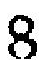8
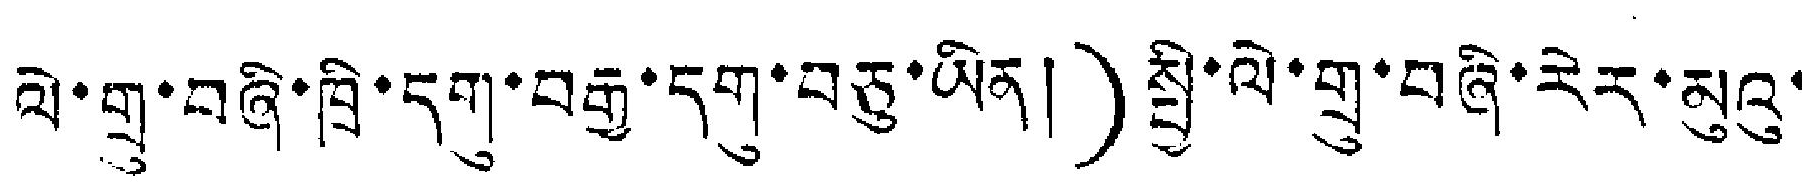ལེ་གྲུ་བཞི་ཁྲི་དགུ་བརྒྱ་དགུ་བཅུ་ཡིན།)སྤྱི་ལེ་གྲུ་བཞི་རེར་མུའུ་
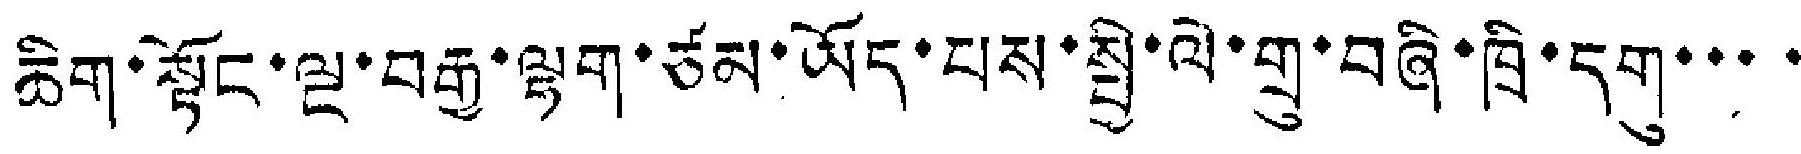ཆིག་སྟོང་ལྔ་བརྒྱ་ལྷག་ཙམ་ཡོད་པས་སྤྱི་ལེ་གྲུ་བཞི་ཁྲི་དགུ་་་་
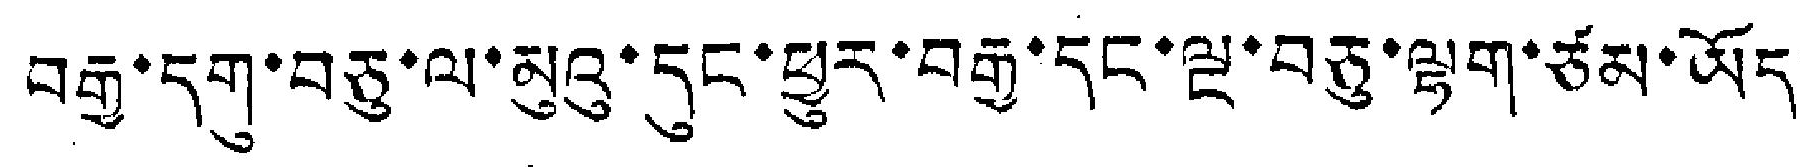བརྒྱ་དགུ་བཅུ་ལ་མུའུ་དུང་ཕྱུར་བརྒྱ་དང་ལྔ་བཅུ་ལྷག་ཙམ་ཡོད་
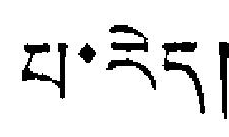པ་རེད།
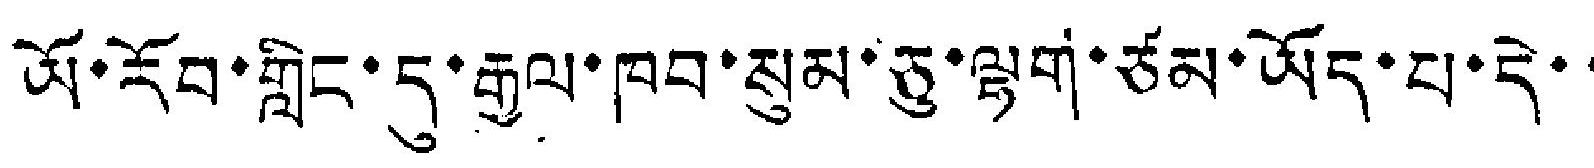ཡོ་རོབ་གླིང་དུ་རྒྱལ་ཁབ་སུམ་ཅུ་ལྷག་ཙམ་ཡོད་པ་དེ་་
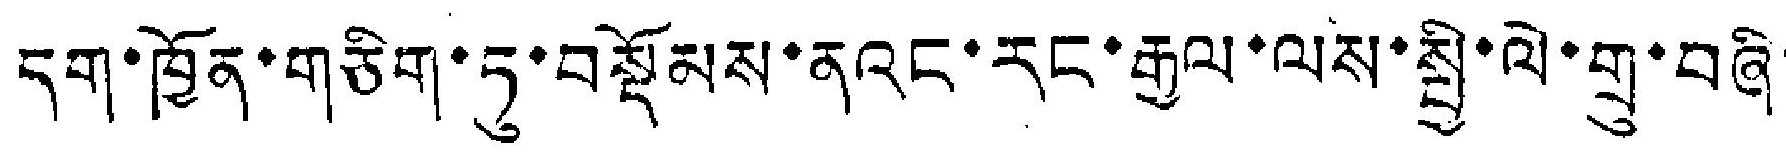དག་ཁྱོན་གཅིག་ཏུ་བསྡོམས་ནའང་རང་རྒྱལ་ལས་སྤྱི་ལེ་གྲུ་བཞི་
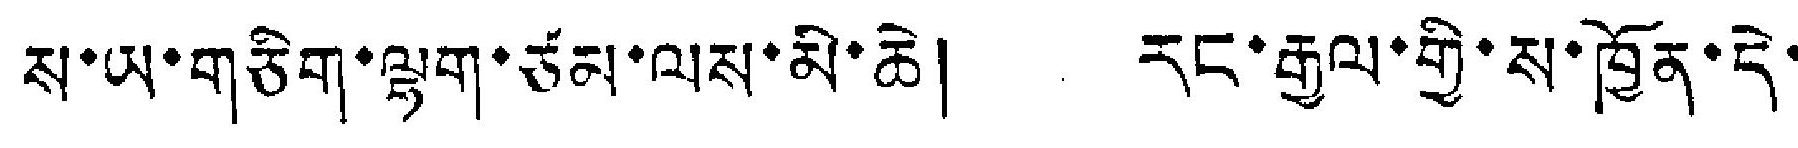ས་ཡ་གཅིག་ལྷག་ཙམ་ལས་མི་ཆེ། རང་རྒྱལ་གྱི་ས་ཁྱོན་དེ་
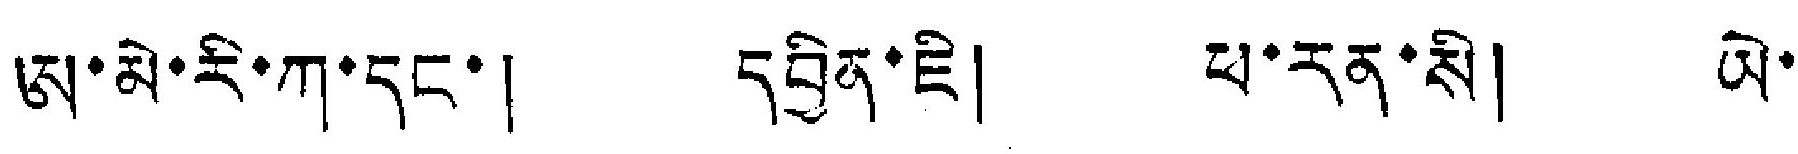ཨ་མེ་རི་ཀ་དང་། དབྱིན་ཇི། ཕ་རན་སི། ཡེ་
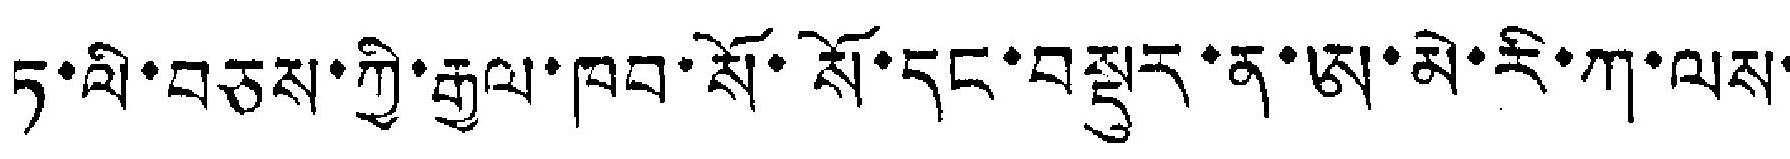ཏ་ལི་བཅས་ཀྱི་རྒྱལ་ཁབ་སོ་སོ་དང་བསྡུར་ན་ཨ་མེ་རི་ཀ་ལས་
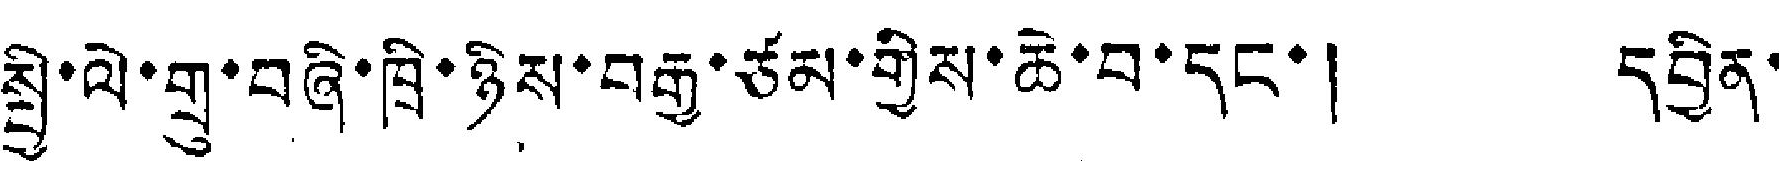སྤྱི་ལེ་གྲུ་བཞི་ཁྲི་ཉིས་བརྒྱ་ཙམ་གྱིས་ཆེ་བ་དང་། དབྱིན་
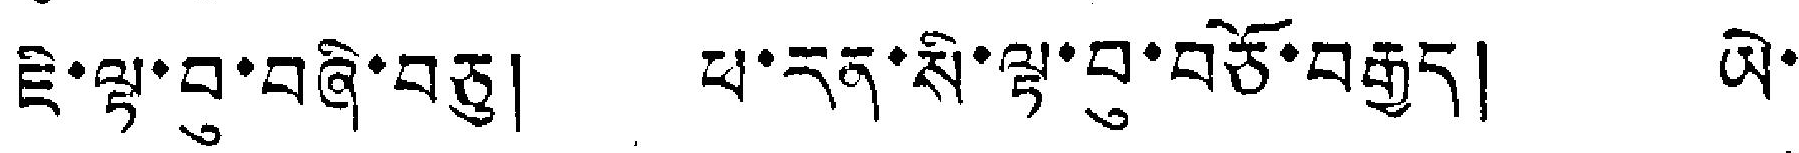ཇི་ལྟ་བུ་བཞི་བཅུ། ཕ་རན་སི་ལྟ་བུ་བཅོ་བརྒྱད། ཡེ་
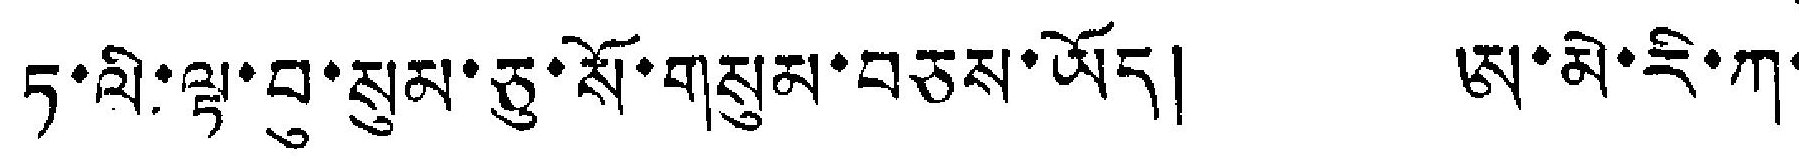ཏ་ལི་ལྟ་བུ་སུམ་ཅུ་སོ་གསུམ་བཅས་ཡོད། ཨ་མེ་རི་ཀ་
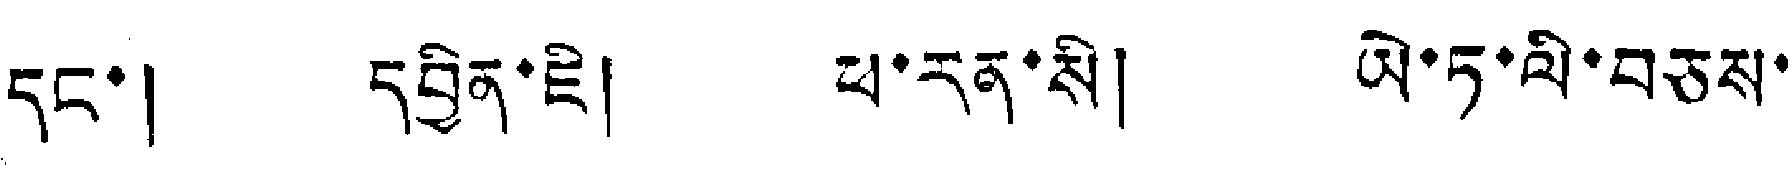དང་། དབྱིན་ཇི། ཕ་རན་སི། ཡེ་ཏ་ལི་བཅས་
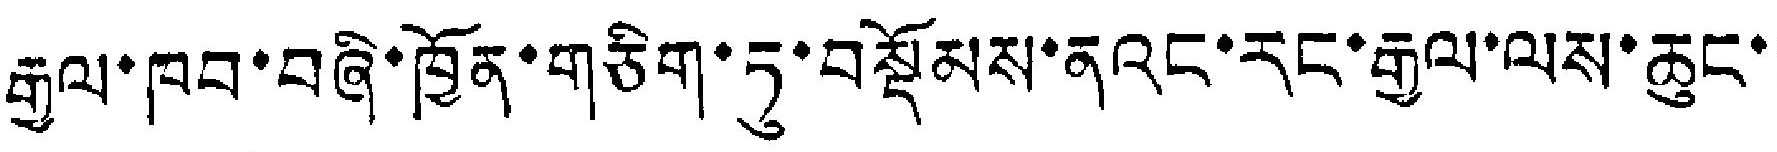རྒྱལ་ཁབ་བཞི་ཁྱོན་གཅིག་ཏུ་བསྡོམས་ནའང་རང་རྒྱལ་ལས་ཆུང་་
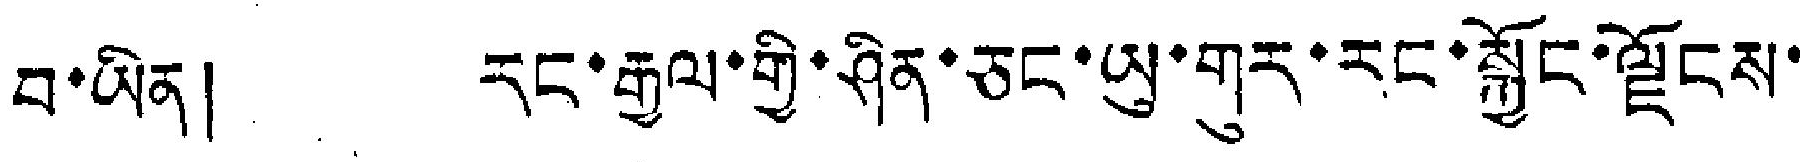བ་ཡིན། རང་རྒྱལ་གྱི་ཤིན་ཅང་ཡུ་གུར་རང་སྐྱོང་ལྗོངས་
